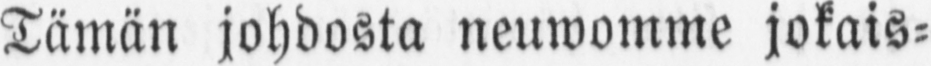Tämän johdosta neuwomme jokais-
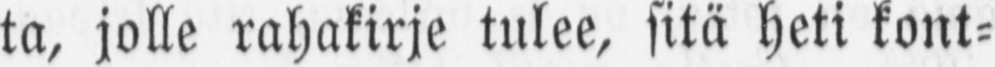ta, jolle rahakirje tulee, sitä heti kont-
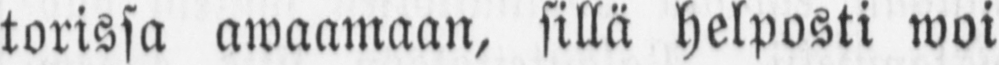torissa awaamaan, sillä helposti woi
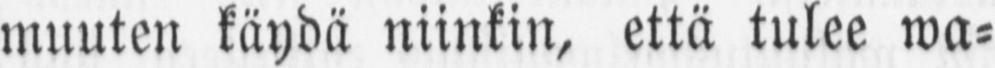muuten käydä niinkin, että tulee wa-
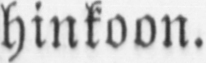hinkoon.
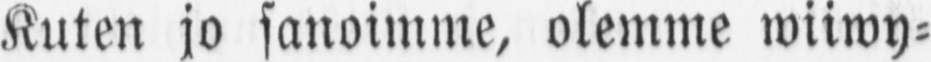Kuten jo sanoimme, olemme wiiwy-
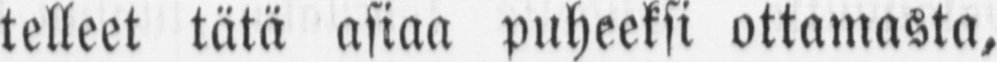telleet tätä asiaa puheeksi ottamasta,
